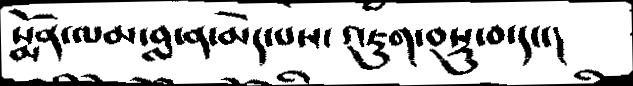སྨོན་ལམ་བླ་ན་མེད་པས་ འཇུག་བསྡུ་བ་དང་།
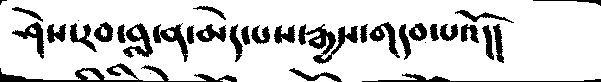ཤེས་རབ་བླ་ན་མེད་པས་རྒྱས་གདབ་པའོ།།
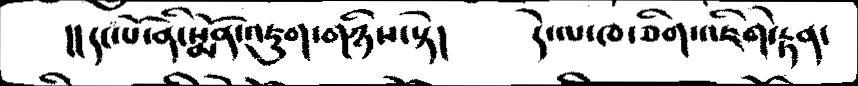།།དང་པོ་ནི་སྨོན་འཇུག་གཉིས་སྟེ།      དེ་ལ་ཁ་ཅིག་འཇིག་རྟེན་
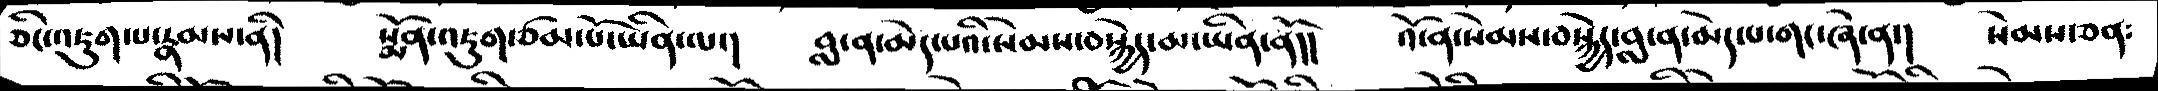ཅིང་འཇུག་པ་རྣམས་ནི།    སྨོན་འཇུག་ཙམ་པོ་ཡིན་ལ་།    བླ་ན་མེད་པའི་སེམས་བསྐྱེད་མ་ཡིན་ནོ།།    འོ་ན་སེམས་བསྐྱེད་བླ་ན་མེད་པ་གང་ཞེ་ན་།    སེམས་ཅན༴
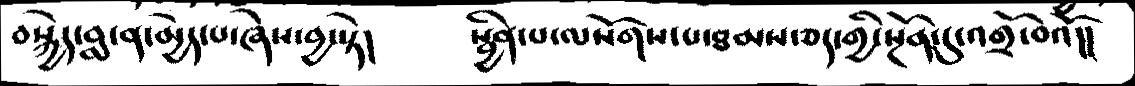བསྐྱེད་བླ་ན་མྱེད་པ་ཞེས་བྱ་སྟེ།     སྦྱིན་པ་ལསོགས་པ་ཐམས་ཅད་གྱི་སྔོན་དདུ་འགྲོ་བའོ།།
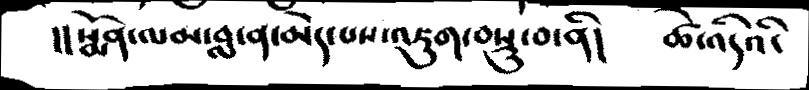།།སྨོན་ལམ་བླ་ན་མེད་པས་འཇུག་བསྡུ་བ་ནི།   ཚེ་འདིའི་
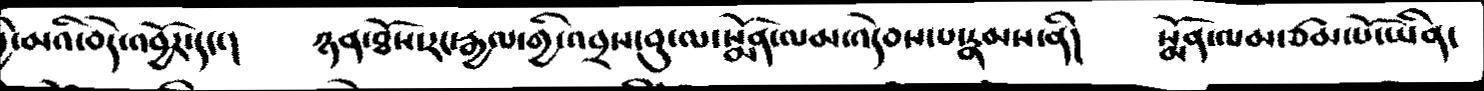་མའི་བདེ་འབྱོར་དང་།   ཉན་ཐོས་རང་རྒྱལ་གྱི་འབྲས་བུ་ལ་སྨོན་ལམ་འདེབས་པ་རྣམས་ནི།    སྨོན་ལམ་ཙམ་པོ་ཡིན་
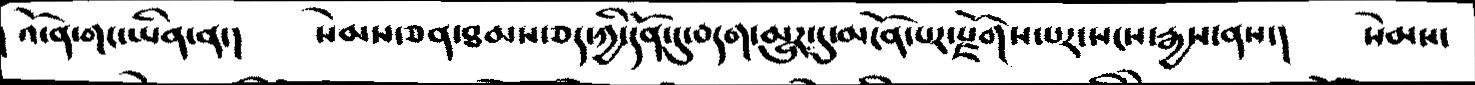འོ་ན་གང་ཡིན་ན་།    སེམས་ཅན་ཐམས་ཅད་ཀྱི་དོན་དུ་བདག་མྱུར་དུ་མངོན་པར་རྫོགས་པར་སངས་རྒྱས་ནས་།   སེམས་
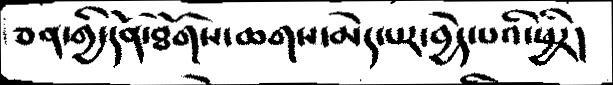ཅན་གྱི་དོན་ཐོགས་ཆགས་མེད་པར་བྱེད་པའི་ཕྱིར།
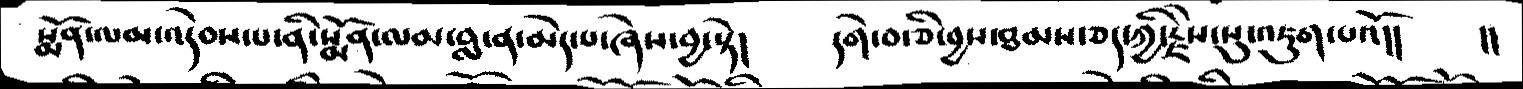སྨོན་ལམ་འདེབས་པ་ནི་སྨོན་ལམ་བླ་ན་མེད་པ་ཞེས་བྱ་སྟེ།     དགེ་བ་ཅི་བྱས་ཐམས་ཅད་ཀྱི་རྗེས་སུ་འཇུག་པའོ།།   །།
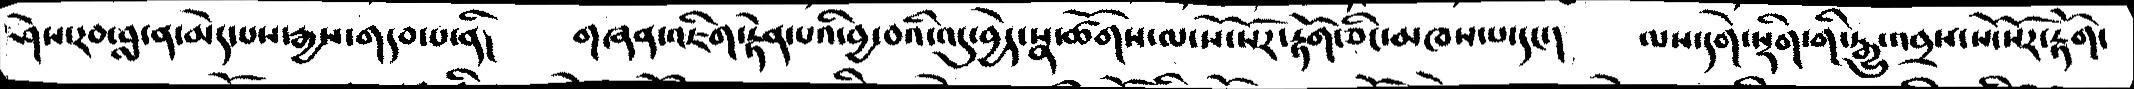ཤེས་རབ་བླ་ན་མེད་པས་རྒྱས་གདབ་པ་ནི།    གཞན་འཇིག་རྟེན་པའི་བྱ་བའི་འདུ་བྱེད་སྣ་ཚོགས་ལ་སོ་སོར་རྟོག་ཅིང་མཁས་པ་དང་།      ལས་དགེ་སྡིག་གི་རྒྱུ་འབྲས་སོ་སོར་རྟོག་
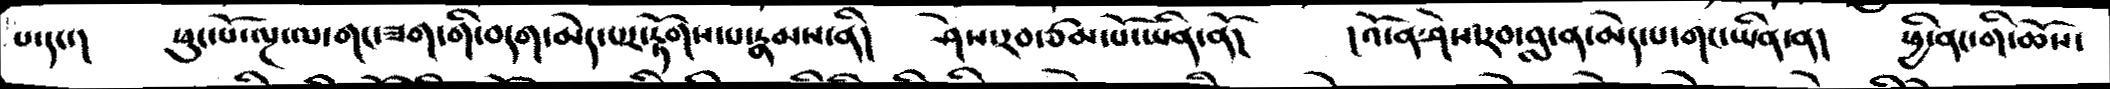པ་དང་།    ཕུང་པོ་ལྔ་ལ་གང་ཟག་གི་བདག་མེད་པར་རྟོགས་པ་རྣམས་ནི།    ཤེས་རབ་ཙམ་པོ་ཡིན་ནོ།    །འོ་ན་ཤེས་རབ་བླ་ན་མེད་པ་གང་ཡིན་ན།   ཕྱི་ནང་གི་ཆོས་
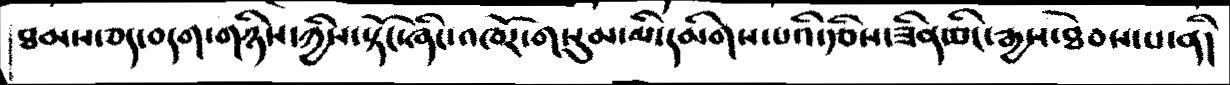ཐམས་ཅད་བདག་གཉིས་ཀྱིས་སྟོང་ཞིང་འཁོར་གསུམ་མི་དམིགས་པའི་རྩིས་ཟིན་ཅིང་རྒྱས་ཐེབས་པ་ནི།
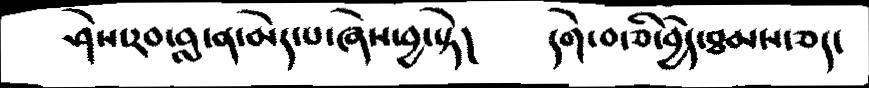ཤེས་རབ་བླ་ན་མེད་པ་ཞེས་བྱ་སྟེ།   དགེ་བ་ཅི་བྱེད་ཐམས་ཅད་
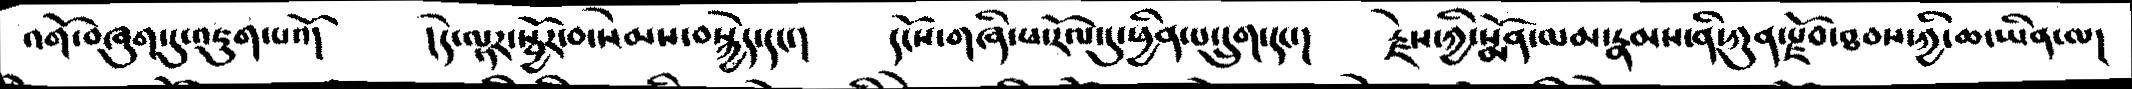འགོ་བཞུག་དུ་འཇུག་པའོ།   །དེ་ལྟར་སྦྱོར་བ་སེམས་བསྐྱེད་དང་།    དངོས་གཞི་ཕ་རོལ་དུ་ཕྱིན་པ་དྲུག་དང་།    རྗེས་ཀྱི་སྨོན་ལམ་རྣམས་ནི་ཀུན་རྫོབ་ཐབས་ཀྱི་ཆ་ཡིན་ལ།
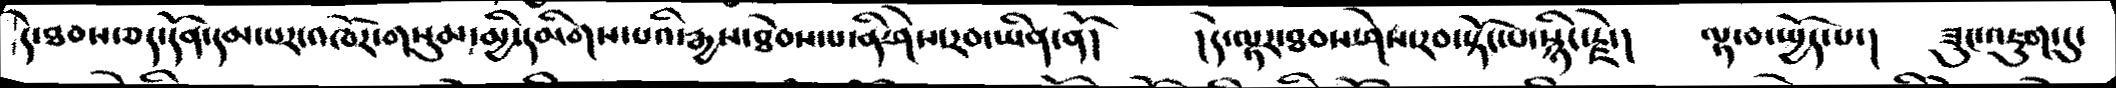དེ་ཐབས་ཅད་དོན་དམ་པར་འཁོར་གསུམ་མྱི་དམིགས་པའི་རྒྱས་ཐེབས་པ་ནི་ཤེས་རབ་ཡིན་ནོ།    །དེ་ལྟར་ཐབས་ཤེས་རབ་སྟོང་པ་སྙིང་རྗེ་།    ལྟ་བ་སྤྱོད་པ་།    ཟུང་འཇུག་དུ་
